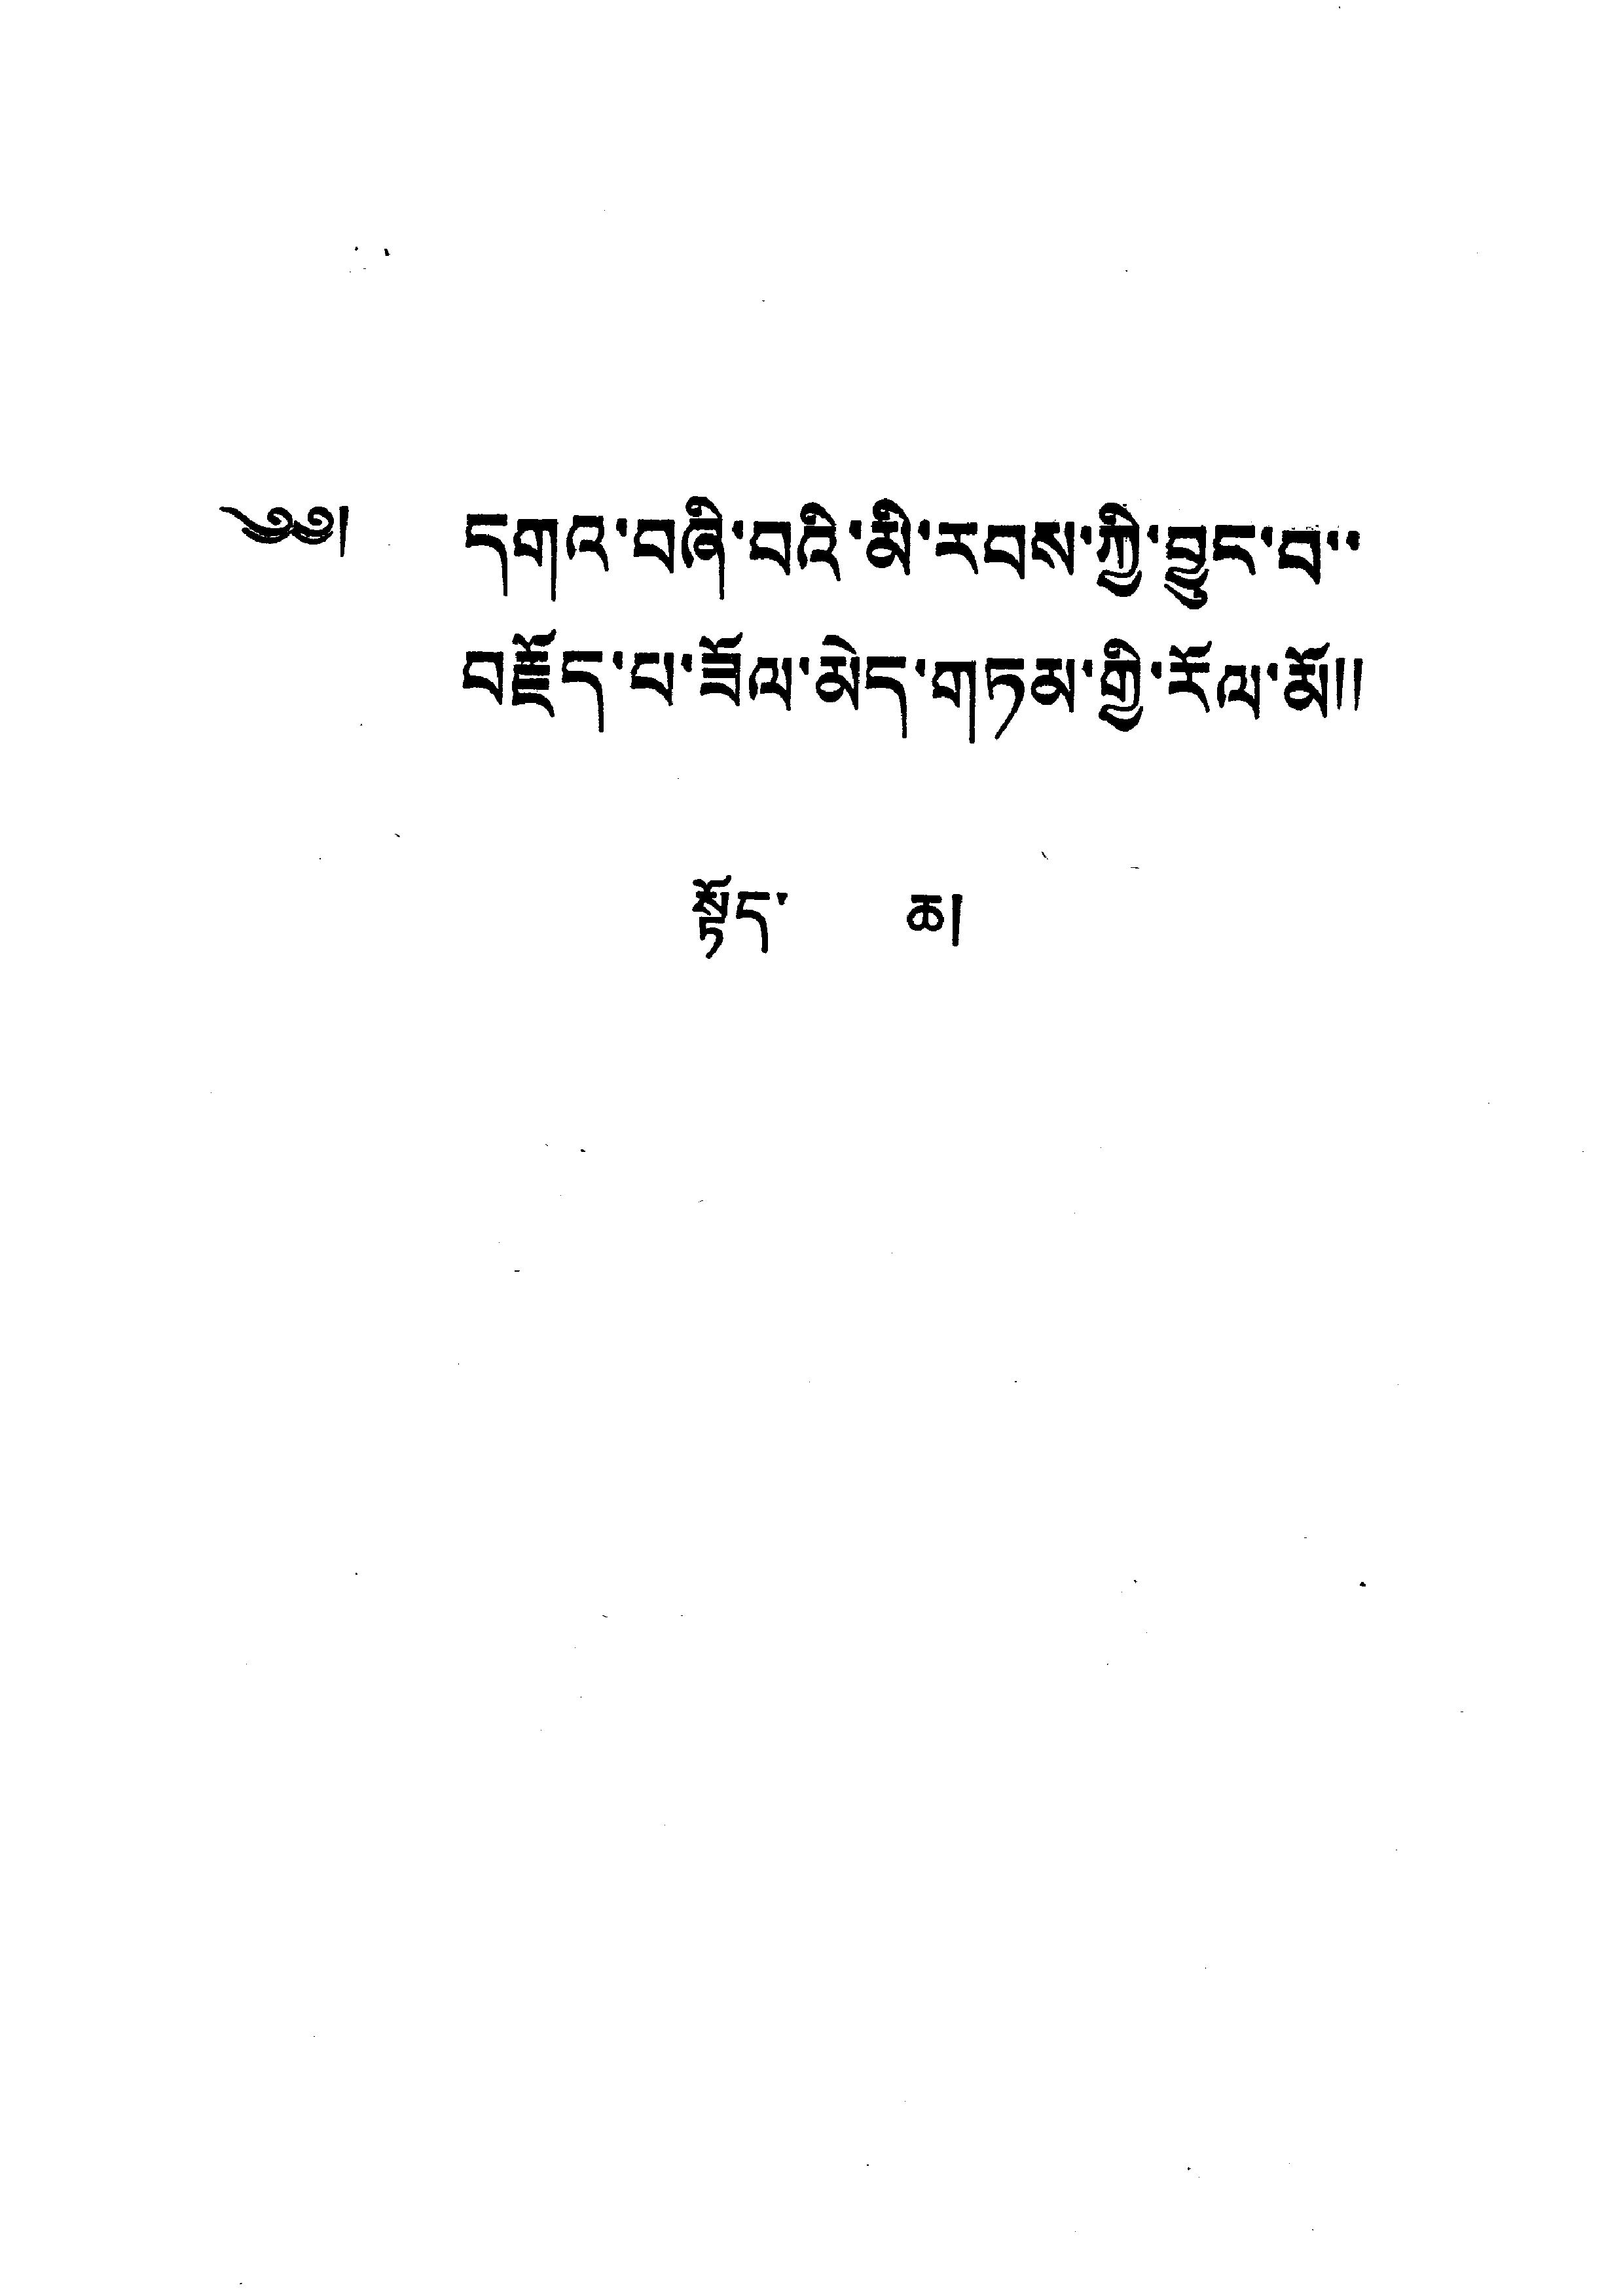༄༅། དགའ་བཞི་བའི་མི་རབས་ཀྱི་བྱུང་བ་་
བརྗོད་པ་ཟོལ་མེད་གཏམ་གྱི་རོལ་མོ།།
སྟོད་ ཆ།
